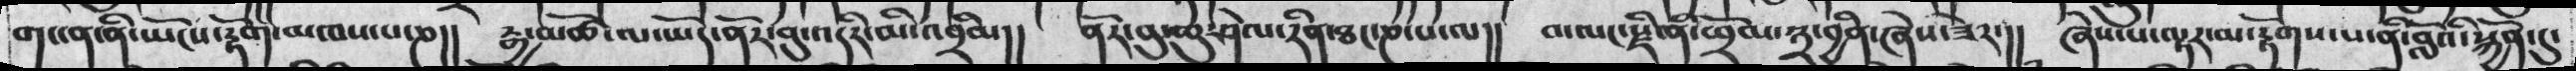གང་ན་ནི་ཡོངས་རྟོག་མཁས་པ་ཎ།།  རྒྱ་མཚོ་ལ་ཡོད་ནོར་བུ་འདིར་མི་འབྲིལ།།  ནོར་བུ་ཆུ་ཤེལ་རིན་ཐང་ཎ་པ་ལ།།  བ་ལང་རྫི་ནི་ཕྲོལ་༣་བྱིན་ཞེས་ཟེར་།།  ཞེས་པ་ལྟར་མ་རྟོགས་པ་ནི་བློའི་སྐྱོན་དུ་
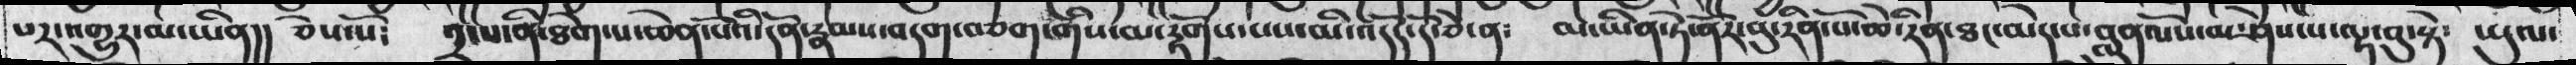པར་འགྱུར་མ་ཡིན།།  ཅེས་སོ༴  ༢་པ་ནི་ཐེག་པ་ཆེན་པོའི་དོན་རྣམས་བདག་བཅག་གིས་མ་རྟོགས་པས་མི་འདོད་དོ་ཅེ་ན༴  མ་ཡིན་ཏེ་ནོར་བུ་རིན་པོ་ཆེ་རིན་ཐང་མེད་པ་བླུན་པོས་མ་ཤེས་པ་ལྟ་བུ་སྟེ༴  ཡུལ་
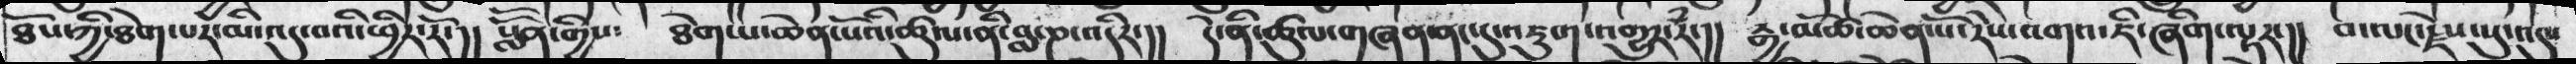ཐོས་ཀྱི་ཐེག་པར་མི་འདུ་བའི་ཕྱིར་རོ་།།  སློོན་གྱིས༴  ཐེག་པ་ཆེན་པོའི་ཚུལ་ནི་བླ་ཎ་འདིར་།།  དེ་ནི་ཚུལ་གཞན་ནང་དུ་འཇུག་འགྱུར་རཾ།།  རྒྱ་མཚོ་ཆེན་པོ་རེས་འགའ་ཇི་ཞིག་ལྟར་།།  བ་ལང་རྗེས་སུ་འདུ་
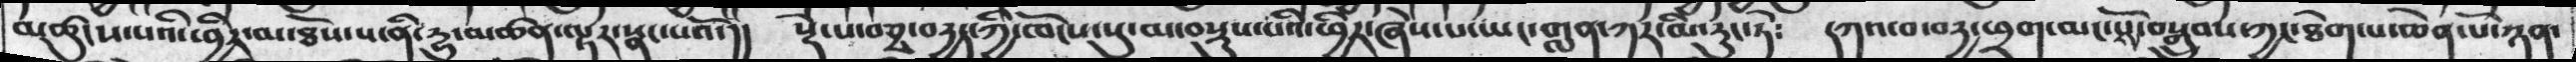མཚུངས་པའི་ཕྱིར་མ་ཐོས་པ་ནི་རྱུ་མཚན་ལྟར་སྣང་པའོ་།།  སྡེ་པ་བཅྭ་བརྱད་ཀྱི་ཁོངས་སུ་མ་བསྡུས་པའི་ཕྱིར་ཞེས་པ་ཡང་གླན་ཀར་མི་རུང་ཏེ༴   དཀའ་བ་བདྱ་ཕྲག་མང་པོ་བསྒྲུབས་ཀྱང་ཐེག་པ་ཆེན་པོ་ཉན་
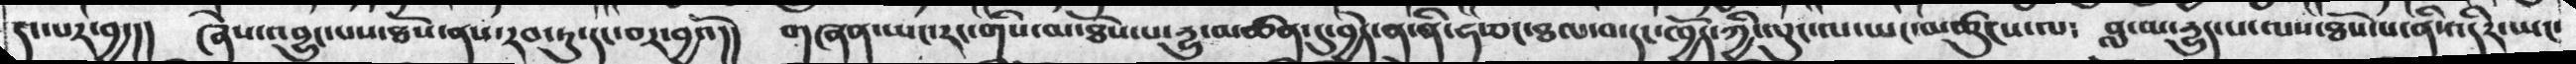ད་པར་བྱ་།།  ཞེས་འབྱུང་པས་ཐོས་ནས་རབ་ཏུ་དང་བར་བྱའོ།།  གཞན་ཡང་རང་གིས་མ་ཐོས་པ་རྱུ་མཚན་དུ་བྱེད་ན་ནི་ཧ་ཅང་ཐལ་བ་དང་ཁྱོད་ཀྱི་ལུང་ལ་ཡང་མཚུངས་ལ༴  བླ་མ་རྱུད་པ་ལས་ཐོས་པ་ནི་འདིར་ཡང་
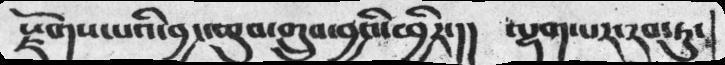རྫོགས་པའི་བྱང་ཆུབ་གྲུབ་བྱའི་ཕྱིར་།།  ལྟག་པར་རབ་ཏུ་
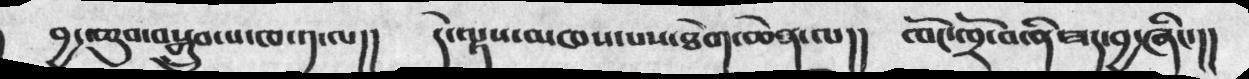བྱང་ཆུབ་བསྒྲུབ་པ་ཁ་༡་ལ།།  དེ་ལྟས་མཁས་པས་ཐེག་ཆེན་ལ།།  ཁོང་ཁྲོ་བ་ནི་ཟད་བྱ་ཞིང་།།
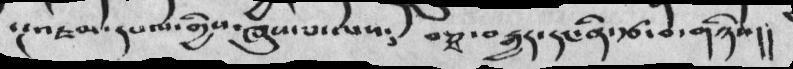་།འཇམ་དཔལ་གྱིས་ཞུས་པ་ལས༴  བརྩ་བརྒྱད་དང་ནི་རྩ་བ་གཉིས།།
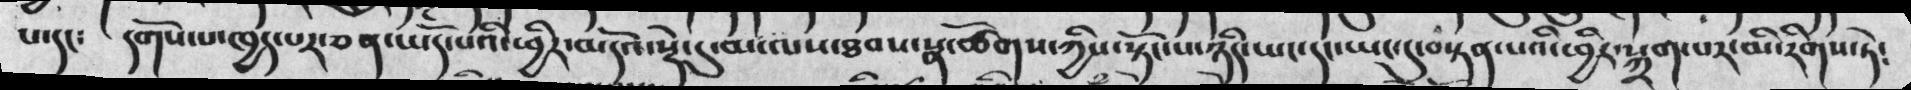པ་ང༴  དགོས་པ་ཁྱད་པར་ཅན་ཡོད་པའི་ཕྱིར་མདོའ་སྡེ་དུ་མ་ལས་ཐབས་སྣ་ཚོགས་ཀྱིས་སྟོང་པ་ཉིད་ཡང་དང་ཡང་དུ་བསྟན་པའི་ཕྱིར་སྐྲག་པར་མི་རིགས་ཏེ༴
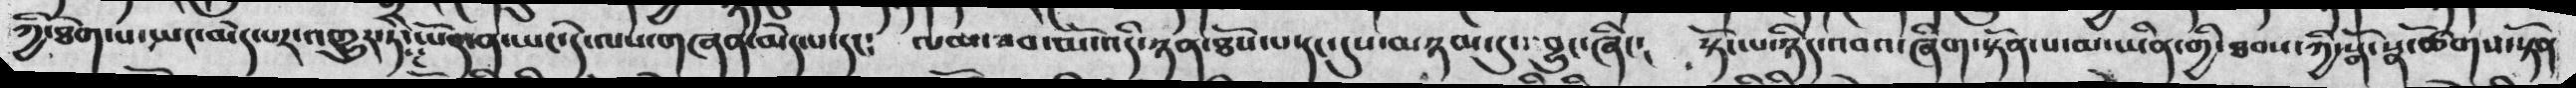ཀྱི་ཐེག་པ་སྤང་མེད་པར་འགྱུར་ཏེ་ཡོད་ན་ཡང་དེ་ལས་གཞན་མེད་པ་དང༴   ལམ་ཟབ་མོ་འདི་ཉན་ཐོས་པ་དང་དུས་མཉམ་དུ་འབྱུང་ཞིང༴   སྟོང་པ་ཉིད་འབའ་ཞིག་སྟོན་པ་མ་ཡིན་གྱི་ཐབས་ཀྱི་སྒོ་སྣ་ཚོགས་སྟོན་
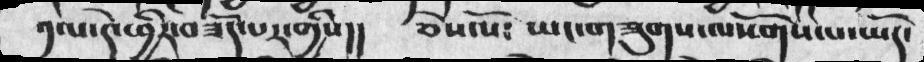༡་པ་དེ་ཕྱིར་བཟོད་པར་གྱིས།།  ཅེས་སོ༴  ཡང་གཟུགས་ལསོགས་པ་ཡོད་
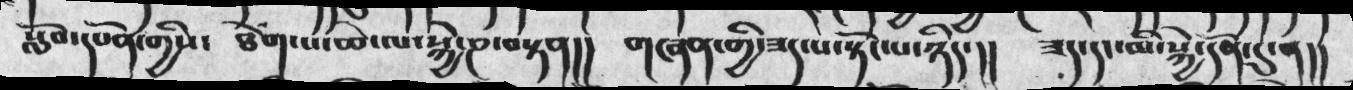སློབ་སཔོན་གྱིས༴  ཐེག་པ་ཆེ་ལ་སྐྱེ་ཎ་བསྟན།།  གཞན་གྱི་ཟད་སྟོང་པ་ཉིད་།།  ཟད་དང་མི་སྐྱེ་དོན་དུ་ན།།
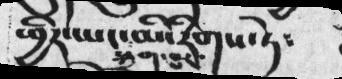ཕྱིར་ཡང་སྐྲག་བུར་མི་རིགས་ཏེ་
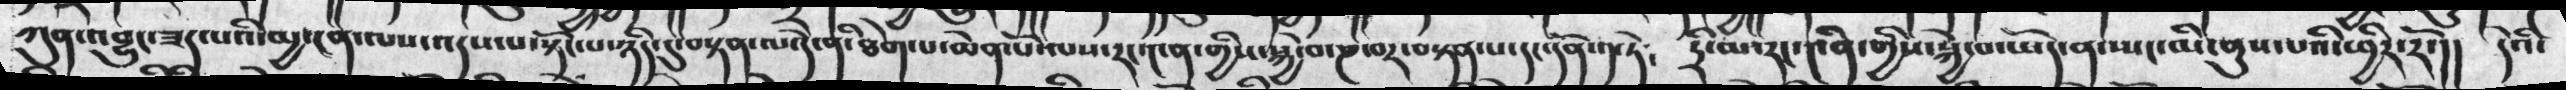ཀུན་འབྱུང་ཟད་པའི་མྱ་ངན་ལས་འདས་པ་སྟོང་པ་ཉིད་དུ་བསྟན་ལ་དེ་ནི་ཐེག་པ་ཆེན་པོ་ལས་རང་༤ན་གྱིས་སྐྱེ་བ་ཎ་བར་བསྟན་པ་དང་དོན་༡་ཏེ༴  དྲི་མ་རང་༤ིན་གྱིས་སྐྱེ་བ་ཡོད་ན་ཡང་མི་ནུས་པའི་ཕྱིར་རོ་།།  དེའི་
